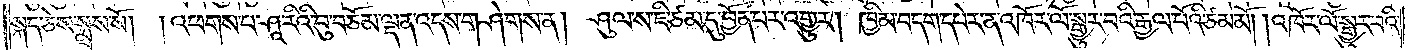སྐད་ཅེས་སྨྲས་སོ། །འཕགས་པ་ཤཱ་རིའི་བུ་བཅོམ་ལྡན་འདས་གཤེགས་ན། ཤུལ་ས་ཇི་ཙམ་དུ་བྱོན་པར་འགྱུར། ཁྱིམ་བདག་དཔེར་ན་འཁོར་ལོ་སྒྱུར་བའི་རྒྱལ་པོའི་ཙམ་མོ། །འཁོར་ལོ་སྒྱུར་བའི་
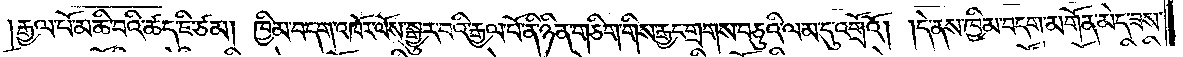རྒྱལ་པོ་མཆི་བའི་ཚད་ཇི་ཙམ། ཁྱིམ་བདག་འཁོར་ལོས་སྒྱུར་བའི་རྒྱལ་པོ་ནི་ཉིན་གཅིག་གིས་རྒྱང་གྲགས་བཅུའི་ལམ་དུ་འགྲོའོ། །དེ་ནས་ཁྱིམ་བདག་མགོན་མེད་ཟས་
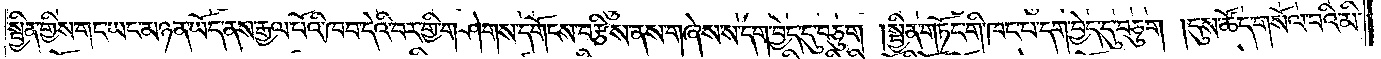སྦྱིན་གྱིས་གང་ཡང་མཉན་ཡོད་ནས་རྒྱལ་པོའི་ཁབ་དེའི་བར་གྱི་གཤེགས་དགོངས་བརྩིས་ནས་གཞེས་ས་དག་བྱེད་དུ་བཅུག །སྦྱིན་གཏོང་གི་ཁང་པ་དག་བྱེད་དུ་བཅུག །དུས་ཚོད་གསོལ་བའི་མི་
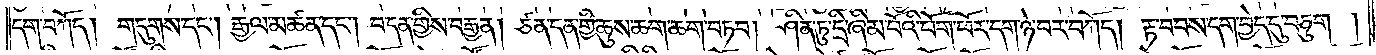དག་བཀོད། གདུགས་དང༌། རྒྱལ་མཚན་དང༌། བ་དན་གྱིས་བརྒྱན། ཙན་དན་གྱི་ཆུས་ཆག་ཆག་བཏབ། ཤིན་ཏུ་དྲི་ཞིམ་པོའི་པོག་ཕོར་དག་ཉེ་བར་བཀོད། རྟ་བབས་དག་བྱེད་དུ་བཅུག །
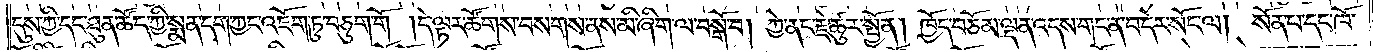དུས་ཀྱི་དང་ཐུན་ཚོད་ཀྱི་སྨན་དག་ཀྱང་འཇོག་ཏུ་བཅུག་གོ །དེ་ལྟར་ཚོགས་བསགས་ནས་མི་ཞིག་ལ་བསྒོ་བ། ཀྱེ་ནང་རྗེ་ཚུར་སྤྱོན། ཁྱོད་བཅོམ་ལྡན་འདས་གང་ན་བ་དེར་སོང་ལ། སོན་པ་དང་ཁོ་
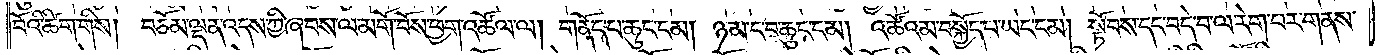བོའི་ཚིག་གིས། བཅོམ་ལྡན་འདས་ཀྱི་ཞབས་ལ་མགོ་བོས་ཕྱག་འཚོལ་ལ། གནོད་པ་ཆུང་ངམ། ཉམ་ང་བ་ཆུང་ངམ། འཚོའམ་བསྐྱོད་པ་ཡང་ངམ། སྟོབས་དང་བདེ་བ་ལ་རེག་པར་གནས་
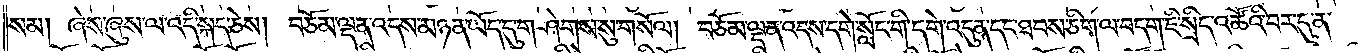སམ། ཞེས་ཞུས་ལ་འདི་སྐད་ཅེས། བཅོམ་ལྡན་འདས་མཉན་ཡོད་དུ་གཤེགས་སུ་གསོལ། བཅོམ་ལྡན་འདས་དགེ་སློང་གི་དགེ་འདུན་དང་ཐབས་ཅིག་ལ་བདག་ཇི་སྲིད་འཚོའི་བར་དུ་ན་
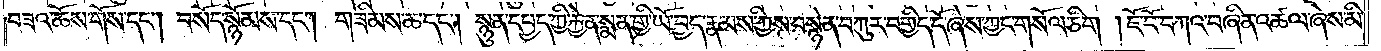བཟའ་ཆོས་གོས་དང༌། བསོད་སྙོམས་དང༌། གཟིམས་ཆ་དང༌། སྙུན་དཔྱད་ཀྱི་རྐྱེན་སྨན་གྱི་ཡོ་བྱད་རྣམས་ཀྱིས་བསྙེན་བཀུར་བགྱིད་དོ་ཞེས་ཀྱང་གསོལ་ཅིག །ཇོ་བོ་བཀའ་བཞིན་འཚལ་ཞེས་མི་
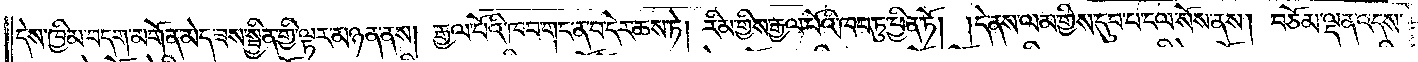དེས་ཁྱིམ་བདག་མགོན་མེད་ཟས་སྦྱིན་གྱི་ལྟར་མཉན་ནས། རྒྱལ་པོའི་ཁབ་གང་ན་བ་དེར་ཆས་ཏེ། རིམ་གྱིས་རྒྱལ་པོའི་ཁབ་ཏུ་ཕྱིན་ཏོ། །དེ་ནས་ལམ་གྱིས་དུབ་པ་ངལ་སོས་ནས། བཅོམ་ལྡན་འདས་
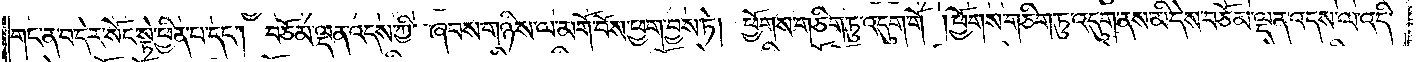གང་ན་བ་དེར་སོང་སྟེ་ཕྱིན་པ་དང༌། བཅོམ་ལྡན་འདས་ཀྱི་ཞབས་གཉིས་ལ་མགོ་བོས་ཕྱག་བྱས་ཏེ། ཕྱོགས་གཅིག་ཏུ་འདུག་གོ །ཕྱོགས་གཅིག་ཏུ་འདུག་ནས་མི་དེས་བཅོམ་ལྡན་འདས་ལ་འདི་
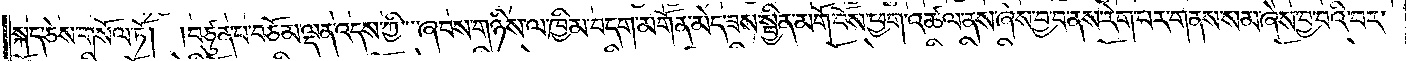སྐད་ཅེས་གསོལ་ཏོ། །བཙུན་པ་བཅོམ་ལྡན་འདས་ཀྱི་ཞབས་གཉིས་ལ་ཁྱིམ་བདག་མགོན་མེད་ཟས་སྦྱིན་མགོ་བོས་ཕྱག་འཚལ་ནས་ཞེས་བྱ་བ་ནས་རེག་པར་གནས་སམ་ཞེས་བྱ་བའི་བར་
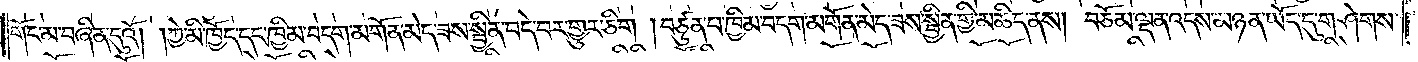གོང་མ་བཞིན་དུའོ། །ཀྱེ་མི་ཁྱོད་དང་ཁྱིམ་བདག་མགོན་མེད་ཟས་སྦྱིན་བདེ་བར་གྱུར་ཅིག །བཙུན་པ་ཁྱིམ་བདག་མགོན་མེད་ཟས་སྦྱིན་གྱི་མཆིད་ནས། བཅོམ་ལྡན་འདས་མཉན་ཡོད་དུ་གཤེགས་
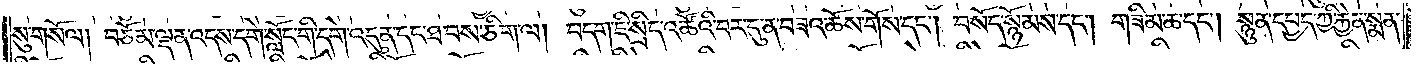སུ་གསོལ། བཅོམ་ལྡན་འདས་དགེ་སློང་གི་དགེ་འདུན་དང་ཐབས་ཅིག་ལ། བདག་ཇི་སྲིད་འཚོའི་བར་དུ་ན་བཟའ་ཆོས་གོས་དང༌། བསོད་སྙོམས་དང༌། གཟིམ་ཆ་དང༌། སྙུན་དཔྱད་ཀྱི་རྐྱེན་སྨན་
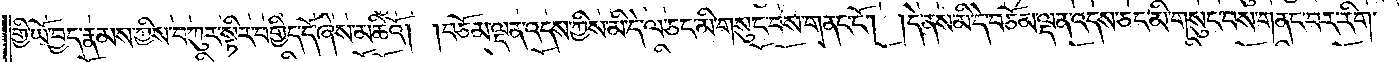གྱི་ཡོ་བྱད་རྣམས་ཀྱིས་བཀུར་སྟིར་བགྱིད་དོ་ཞེས་མཆིའོ། །བཅོམ་ལྡན་འདས་ཀྱིས་མི་དེ་ལ་ཅང་མི་གསུང་བས་གནང་ངོ༌། །དེ་ནས་མི་དེ་བཅོམ་ལྡན་འདས་ཅང་མི་གསུང་བས་གནང་བར་རིག་
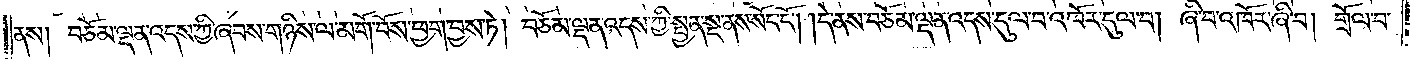ནས། བཅོམ་ལྡན་འདས་ཀྱི་ཞབས་གཉིས་ལ་མགོ་བོས་ཕྱག་བྱས་ཏེ། བཅོམ་ལྡན་འདས་ཀྱི་སྤྱན་སྔ་ནས་སོང་ངོ༌། །དེ་ནས་བཅོམ་ལྡན་འདས་དུལ་བ་འཁོར་དུལ་བ། ཞི་བ་འཁོར་ཞི་བ། གྲོལ་བ་
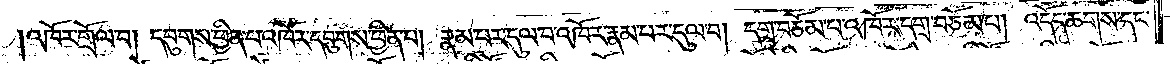།འཁོར་གྲོལ་བ། དབུགས་ཕྱིན་པ་འཁོར་དབུགས་ཕྱིན་པ། རྣམ་པར་དུལ་བ་འཁོར་རྣམ་པར་དུལ་བ། དགྲ་བཅོམ་པ་འཁོར་དགྲ་བཅོམ་པ། འདོད་ཆགས་དང་
